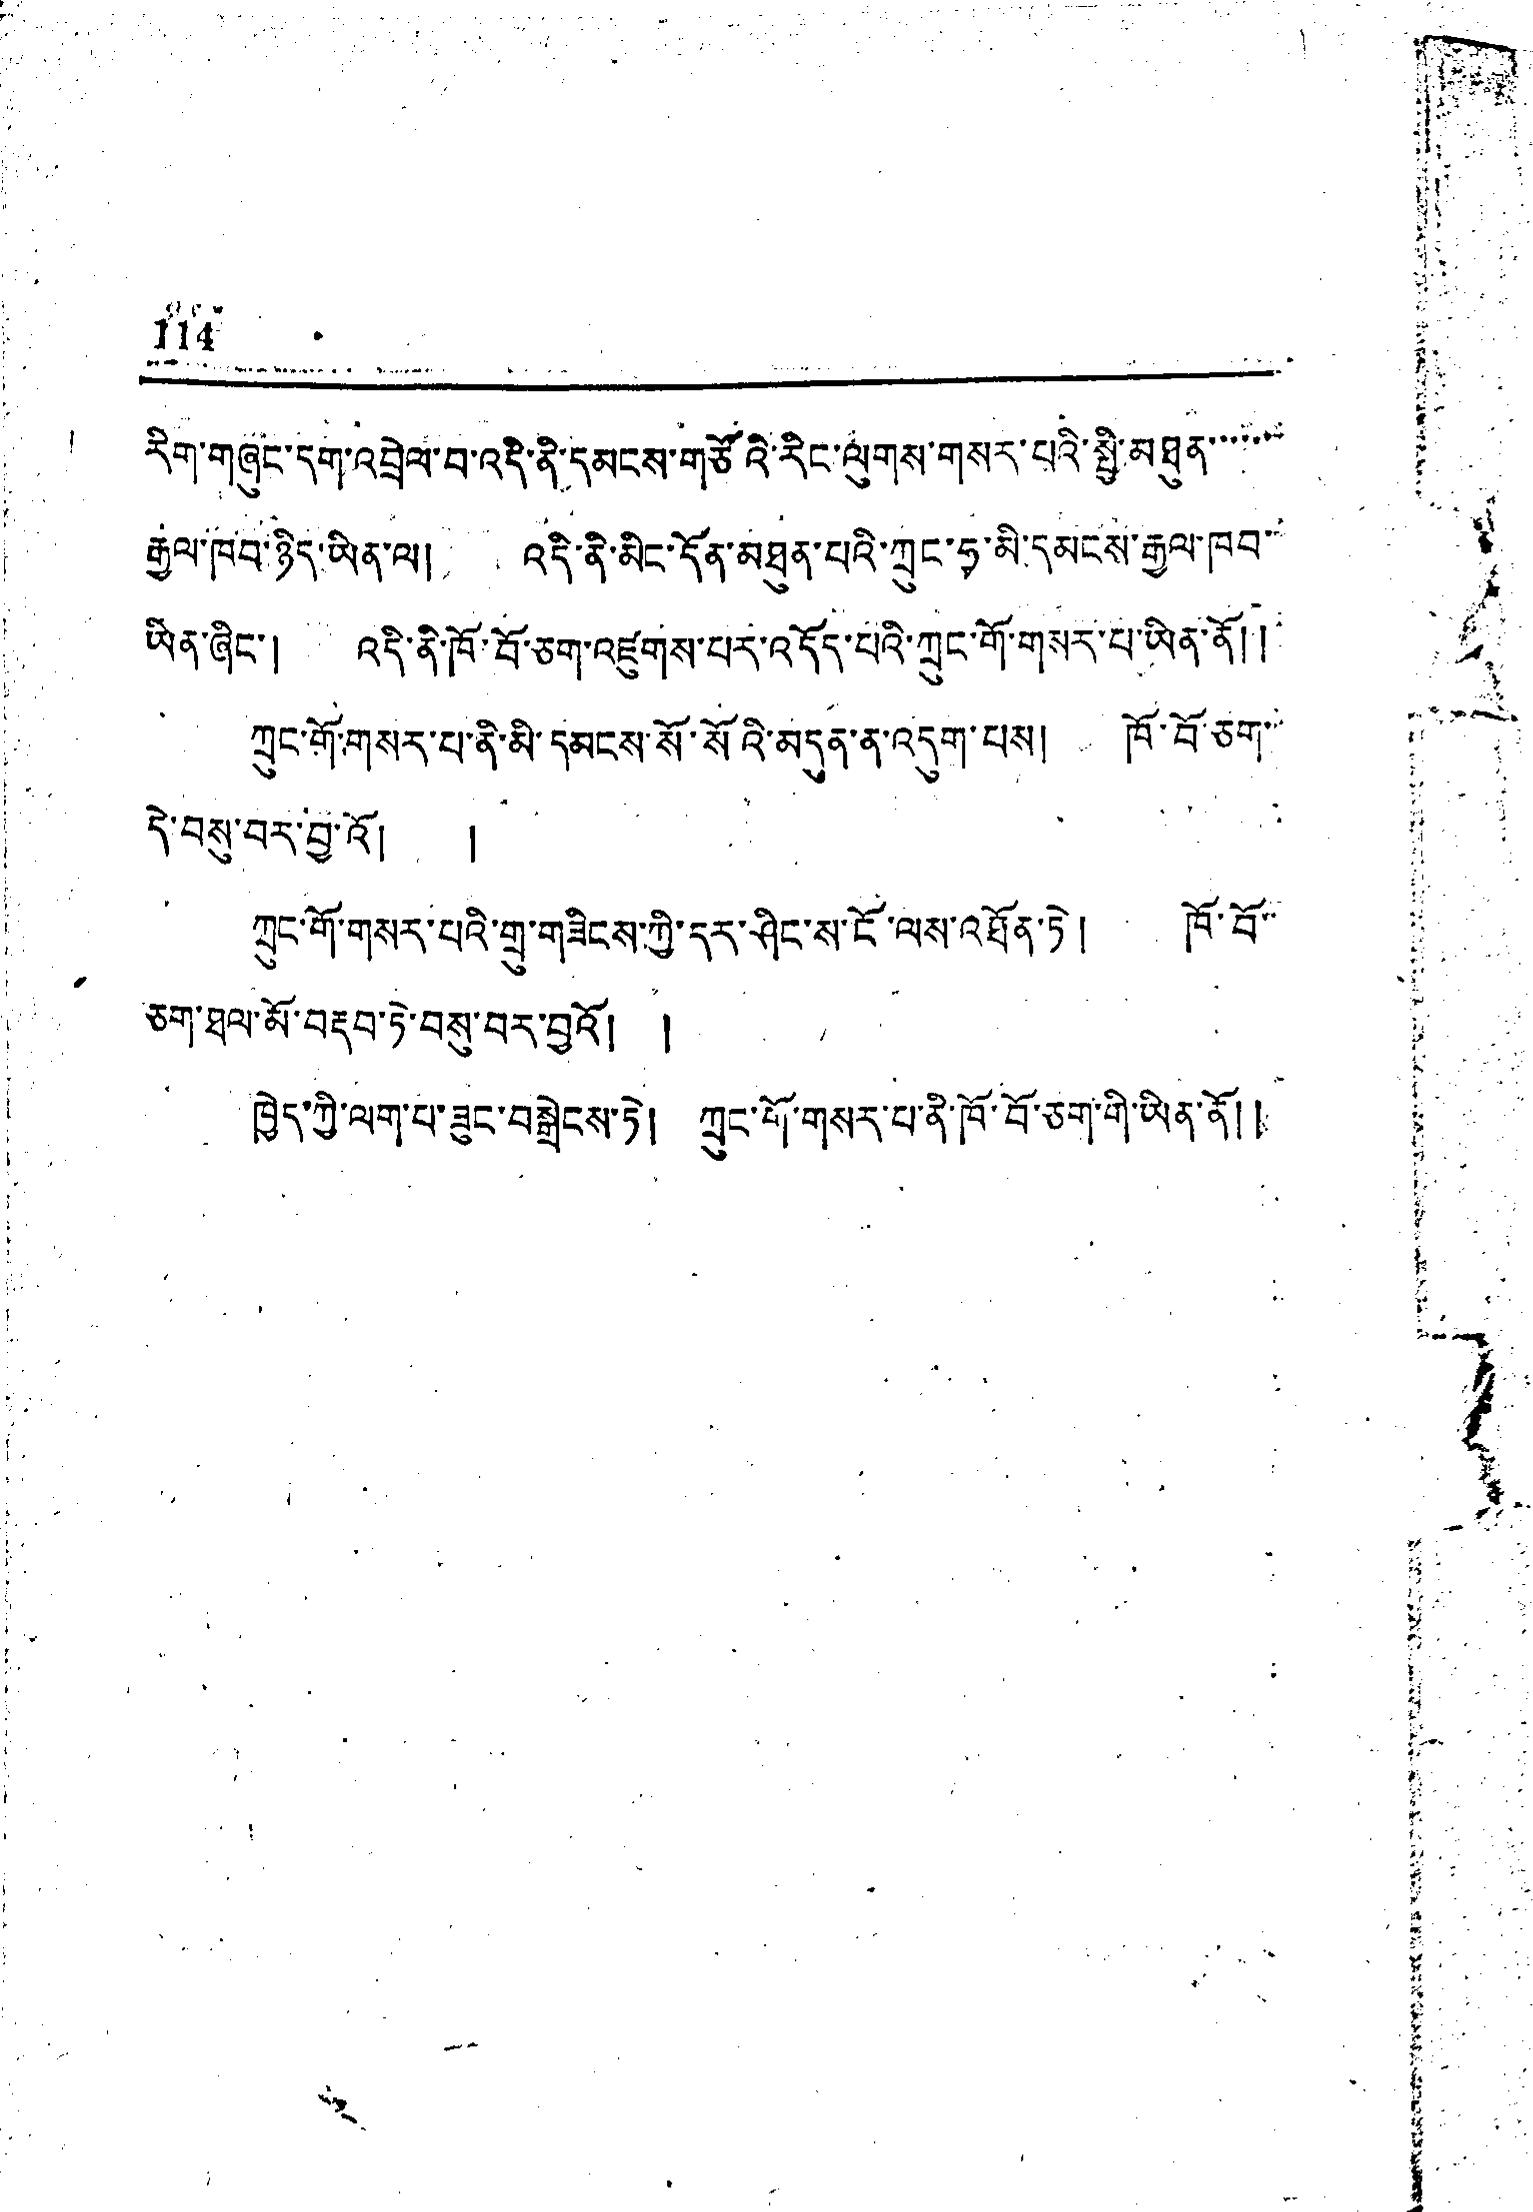114
རིག་གཞུང་དག་འབྲེལ་བ་འདི་ནི་དམངས་གཙོའི་རིང་ལུགས་གསར་པའི་སྤྱི་མཐུན་་་་་་་
རྒྱལ་ཁབ་ཉིད་ཡིན་ལ། འདི་ནི་མིང་དོན་མཐུན་པའི་ཀྲུང་ཧྭ་མི་དམངས་རྒྱལ་ཁབ་
ཡིན་ཞིང་། འདི་ནི་ཁོ་བོ་ཅག་འཛུགས་པར་འདོད་པའི་ཀྲུང་གོ་གསར་པ་ཡིན་ནོ།།
ཀྲུང་གོ་གསར་པ་ནི་མི་དམངས་སོ་སོའི་མདུན་ན་འདུག་པས། ཁོ་བོ་ཅག་་
དེ་བསུ་བར་བྱ་འོ། །
ཀྲུང་གོ་གསར་པའི་གྲ་གཟིངས་ཀྱི་དར་ཤིང་ས་ངོ་ལས་འཐོན་ཏེ། ཁོ་བོ་་
ཅག་ཐལ་མོ་བརྡབ་ཏེ་བསུ་བར་བྱའོ། །
ཁྱེད་ཀྱི་ལག་པ་ཟུང་བསྒྲེངས་ཏེ། ཀྲུང་གོ་གསར་པ་ནི་ཁོ་བོ་ཅག་གི་ཡིན་ནོ།།
